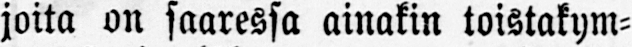joita on saaressa ainakin toistakym-
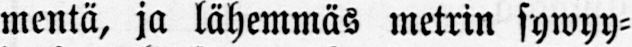mentä, ja lähemmäs metrin sywyy-
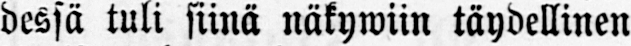dessä tuli siinä näkywiin täydellinen
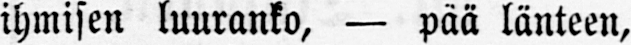ihmisen luuranko, — pää länteen,
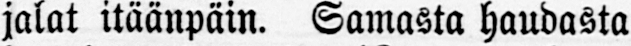jalat itäänpäin. Samasta haudasta
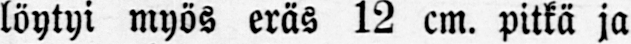löytyi myös eräs 12 cm. pitkä ja
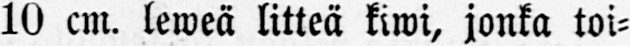10 cm. leweä litteä kiwi, jonka toi-
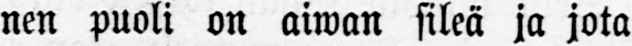nen puoli on aiwan sileä ja jota
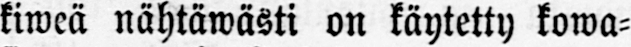kiweä nähtäwäti on käytetty kowa-
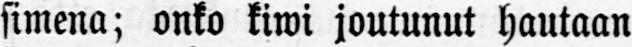simena; onko kiwi joutunut hautaan
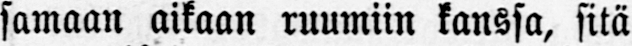samaan aikaan ruumiin kanssa, sitä
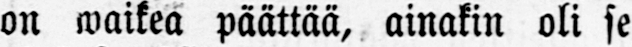on waikea päättää, ainakin oli se
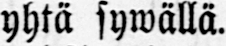yhtä sywällä.
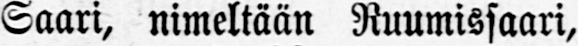Saari, nimeltään Ruumissaari,
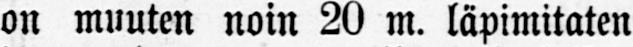on muuten noin 20 m. läpimitaten
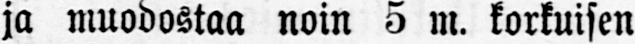ja muodostaa noin 5 m. korkuisen
